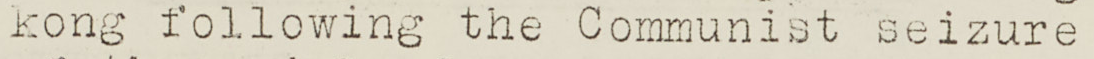kong following the Communist seizure
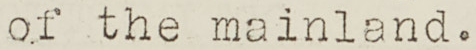of the mainland.
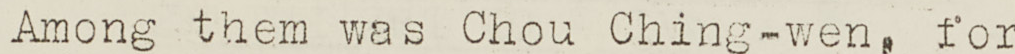Among them was Chou Chin-wen, for
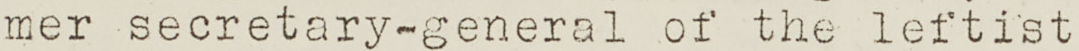mer secretary-general of the leftist
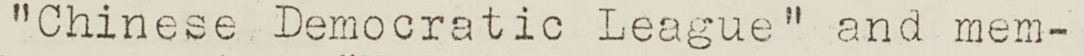"Chinese Democratic League" and mem-
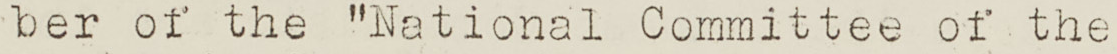ber of the "National Committee of the
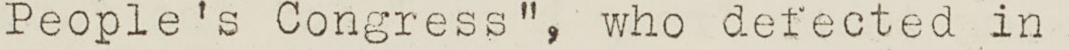People's Congress", who defected in
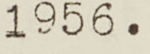1956.
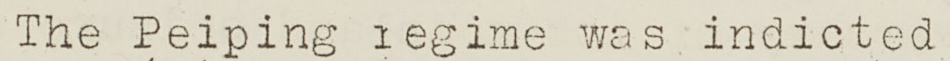The Peiping regime was indicted
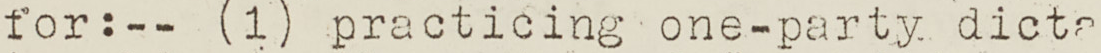for:-- (1) practising one-party dicta
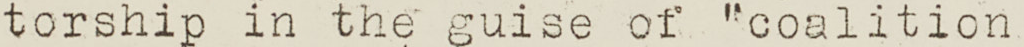torship in the guise of "coalition
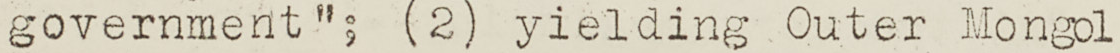government"; (2) yielding outer Mongol
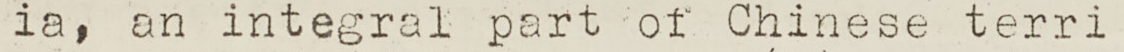ia, an integral part of Chinese terri
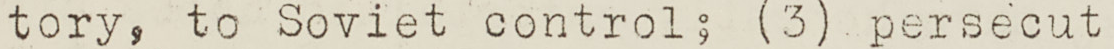tory, to Soviet control; (3) persecut
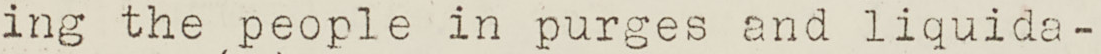ing the people in purges and liquida-
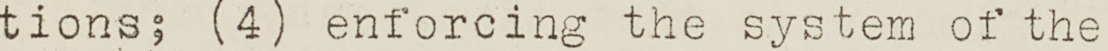tions; (4) enforcing the system of the
